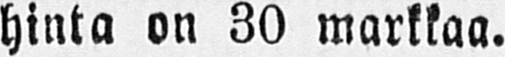hinta on 30 markkaa.
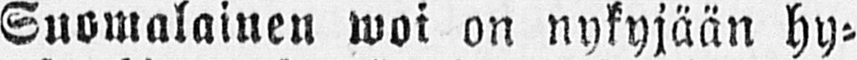Suomalainen woi on nykyjään hy-
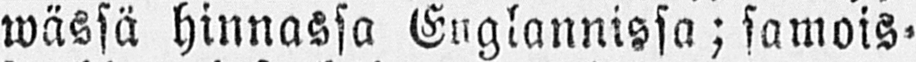wässä hinnassa Englannissa; samois-
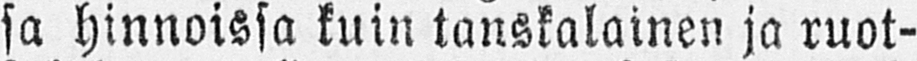sa hinnoissa kuin tanskalainen ja ruot-
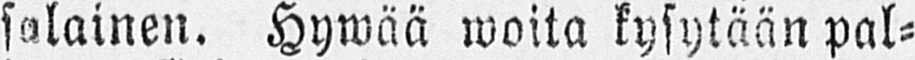salainen. Hywää woita kysytään pal-
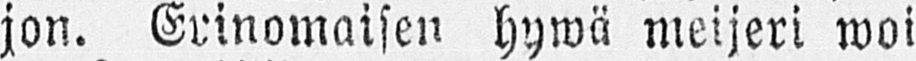jon. Erinomaisen hywä meijeri woi
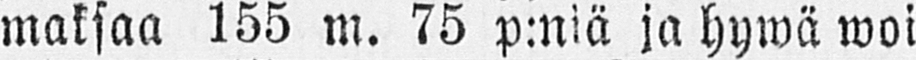maksaa 155 m. 75 p:niä ja hywä woi
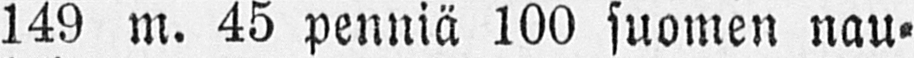149 m. 45 penniä 100 suomen nau-
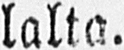lalta.
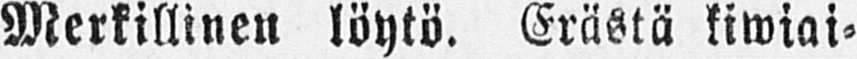Merkillinen löytö. Erästä kiwiai-
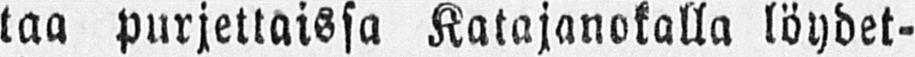taa purjettaissa Katajanokalla löydet-
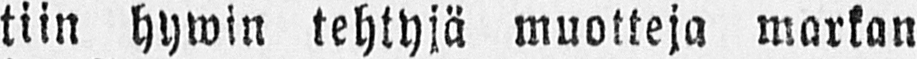tiin hywin tehtyjä muotteja markan
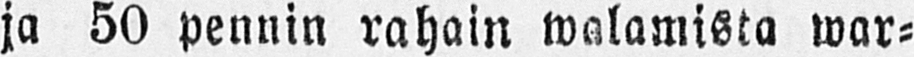ja 50 pennin rahain walamista war-
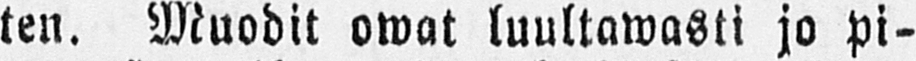ten. Muodit owat luultawasti jo pi-
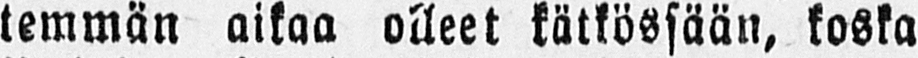temmän aikaa olleet kätkössään, koska
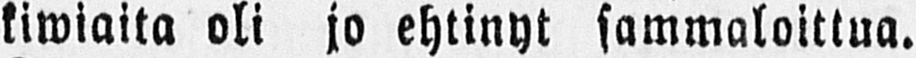kiwiaita oli jo ehtinyt sammaloittua.
